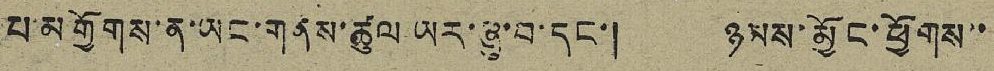པ་མགྱོགས་ན་ཡང་གནས་ཚུལ་ཡར་ཞུ་བ་དང་། ཉམས་མྱོང་ཕྱོགས་་
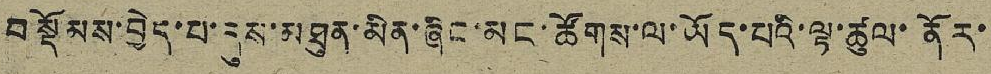བསྡོམས་བྱེད་པ་དུས་མཐུན་མིན་ཞིང་མང་ཚོགས་ལ་ཡོད་པའི་ལྟ་ཚུལ་ནོར་
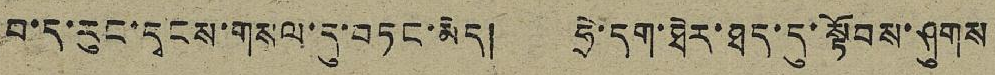བ་ད་རུང་དྭངས་གསལ་དུ་བཏང་མེད། ཧྲེ་དག་ཐེར་ཐད་དུ་སྟོབས་ཤུགས
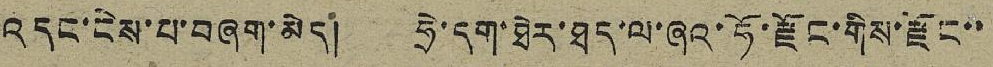འདང་ངེས་པ་བཞག་མེད། ཧྲེ་དག་ཐེར་ཐད་ལ་ཞའ་ཧོ་རྫོང་གིས་རྫོང་་
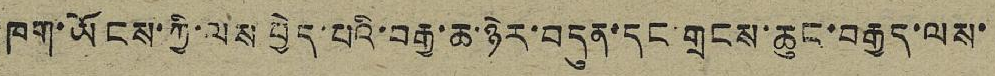ཁག་ཡོངས་ཀྱི་ལས་བྱེད་པའི་བརྒྱ་ཆ་ཉེར་བདུན་དང་གྲངས་ཆུང་བརྒྱད་ལས་
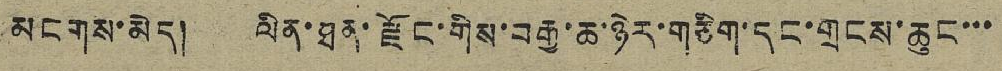མངགས་མེད། ལིན་ཐན་རྫོང་གིས་བརྒྱ་ཆ་ཉེར་གཅིག་དང་གྲངས་ཆུང་་་
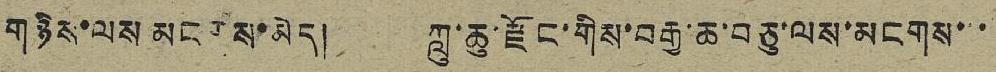གཉིས་ལས་མངགས་མེད། ཀླུ་ཆུ་རྫོང་གིས་བརྒྱ་ཆ་བཅུ་ལས་མངགས་་
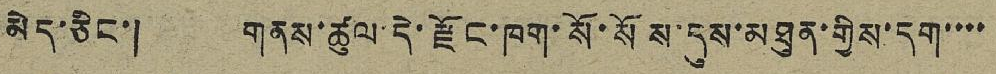མེད་ཅིང་། གནས་ཚུལ་དེ་རྫོང་ཁག་སོ་སོས་དུས་མཐུན་གྱིས་དག་་་་
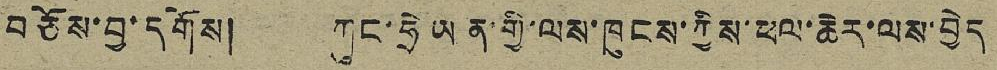བཅོས་བྱ་དགོས། ཀུང་ཧྲེ་ཡན་གྱི་ལས་ཁུངས་ཀྱིས་ཕལ་ཆེར་ལས་བྱེད
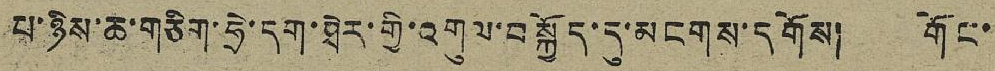པ་ཉིས་ཆ་གཅིག་ཧྲེ་དག་ཐེར་གྱི་འགུལ་བསྐྱོད་དུ་མངགས་དགོས། གོང་
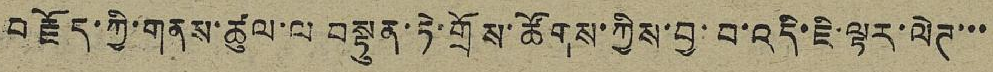བརྗོད་ཀྱི་གནས་ཚུལ་ལ བསྟུན་ཏེ་གྲོས་ཚོགས་ཀྱིས་བྱ་བ་འདི་ཇི་ལྟར་ལེཊ་་་
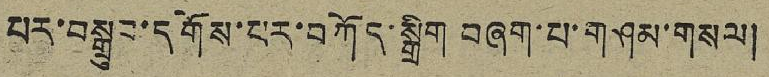པར་བསྒྲུབ་དགོས་པར་བཀོད་སྒྲིག་བཞག་པ་གཤམ་གསལ།
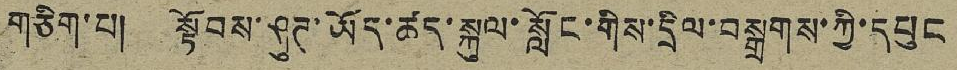གཅིག་པ། སྟོབས་ཤུཊ་ཡོད་ཚད་སྐུལ་སློང་གིས་དྲིལ་བསྒྲགས་ཀྱི་དཔུང
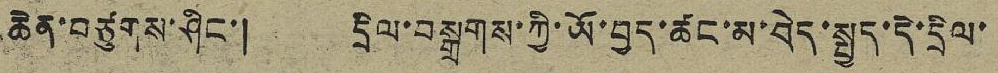ཆེན་བཙུགས་ཤིང་། དྲིལ་བསྒྲགས་ཀྱི་ཡོ་བྱད་ཚང་མ་བེད་སྤྱད་དེ་དྲིལ་
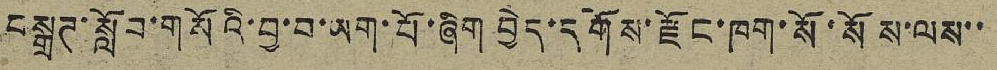བསྒྲཊ་སློབ་གསོའི་བྱ་བ་ཡག་པོ་ཞིག བྱེད་དགོས་རྫོང་ཁག་སོ་སོས་ལས་་
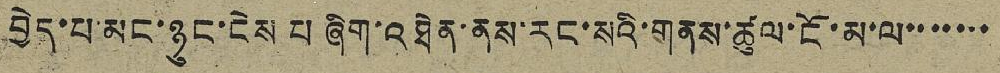བྱེད་པ་མང་ཉུང་ངེས པ ཞིག་འཐེན་ནས་རང་སའི་གནས་ཚུལ་ངོ་མ་ལ་་་་་་་
